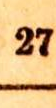27
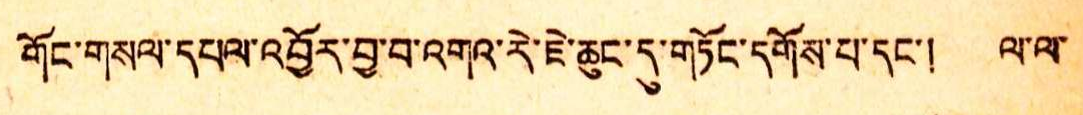གོང་གསལ་དཔལ་འབྱོར་བྱ་བ་འགའ་རི་ཇེ་ཆུང་དུ་གཏོང་དགོས་པ་དང་། ལ་ལ་
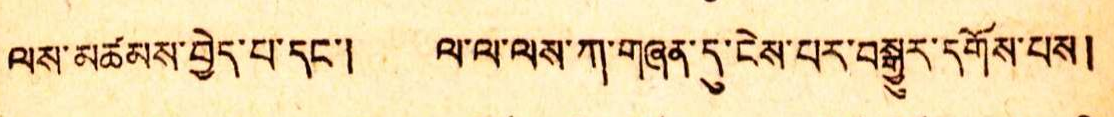ལས་མཚམས་བྱེད་པ་དང་། ལ་ལ་ལས་ཀ་གཞན་དུ་ངེས་པར་བསྒྱུར་དགོས་པས།
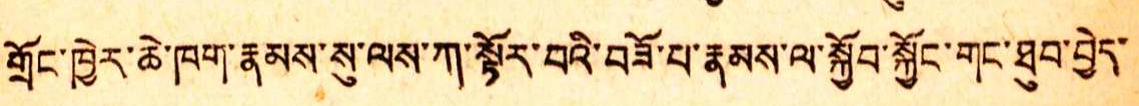གྲོང་ཁྱེར་ཆེ་ཁག་རྣམས་སུ་ལས་ཀ་སྟོར་བའི་བཟོ་པ་རྣམས་ལ་སྐྱོབ་སྐྱོང་གང་ཐུབ་བྱེད་
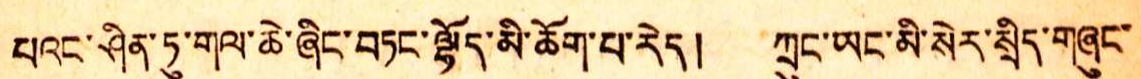པའང་ཤིན་ཏུ་གལ་ཆེ་ཞིང་གཏང་ལྷོད་མི་ཆོག་པ་རེད། ཀྲུང་ཡང་མི་སེར་སྲིད་གཞུང་
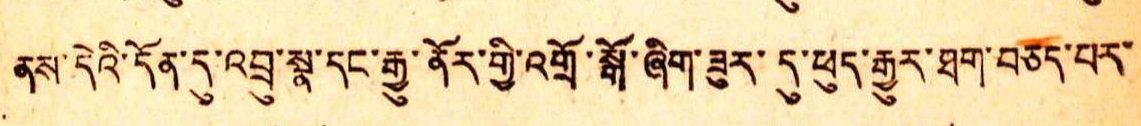ནས་དེའི་དོན་དུ་འབྲུ་སྣ་དང་རྒྱུ་ནོར་གྱི་འགྲོ་སྒོ་ཞིག་ཟུར་དུ་ཕུད་རྒྱུར་ཐག་བཅད་པར་
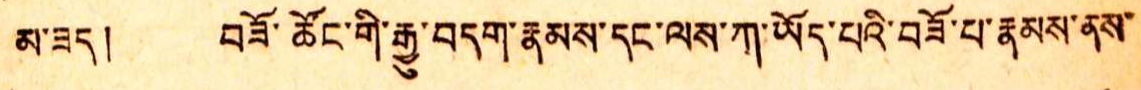མ་ཟད ། བཟོ་ཚོང་གི་རྒྱུ་བདག་རྣམས་དང་ལས་ཀ་ཡོད་པའི་བཟོ་པ་རྣམས་ནས་
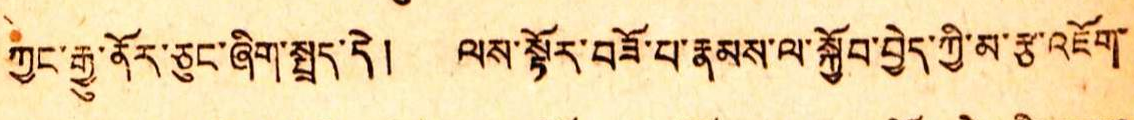ཀྱང་རྒྱུ་ནོར་ཅུང་ཞིག་སྤྲད་དེ ། ལས་སྟོར་བཟོ་པ་རྣམས་ལ་སྐྱོབ་བྱེད་ཀྱི་མ་རྩ་འཇོག་
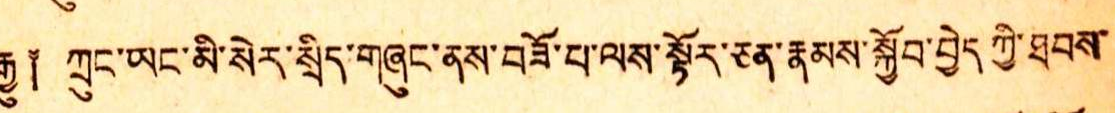རྒྱུ༐ ཀྲུང་ཡང་མི་སེར་སྲིད་གཞུང་ནས་བཟོ་པ་ལས་སྟོར་ཅན་རྣམས་སྐྱོབ་བྱེད་ཀྱི་ཐབས་
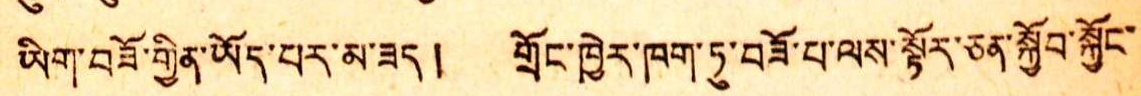ཡིག་བཟོ་གྱིན་ཡོད་པར་མ་ཟད ། གྲོང་ཁྱེར་ཁག་ཏུ་བཟོ་པ་ལས་སྟོར་ཅན་སྐྱོབ་རྐྱོང་
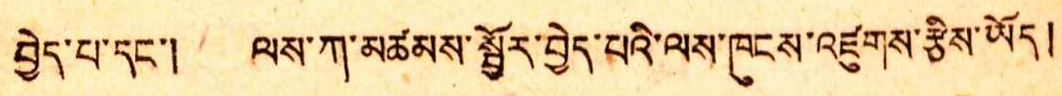བྱེད་པ་དང་། ལས་ཀ་མཚམས་སྦྱོར་བྱེད་པའི་ལས་ཁུངས་འཛུགས་རྩིས་ཡོད།
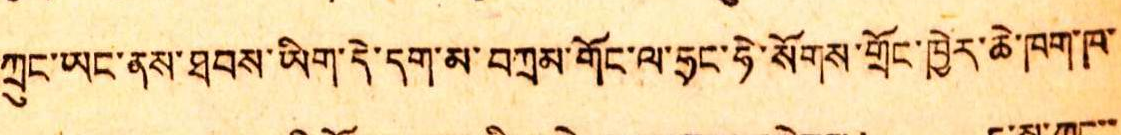ཀྲུང་ཡང་ནས་ཐལས་ཡིག་དེ་དག་མ་བཀྲམ་གོང་ལ་ཧྲང་ཧེ་སོགས་གྲོང་ཁྱིར་ཆེ་ཁག་ཁ་
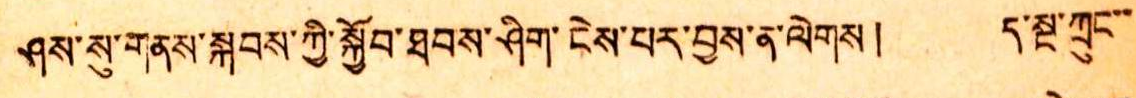ཤས་སུ་གནས་སྐབས་ཀྱི་སྐྱོབ་ཐབས་ཤིག་ངེས་པར་བྱས་ན་ལེགས ། ད་ལྔ་ཀྲུང་་
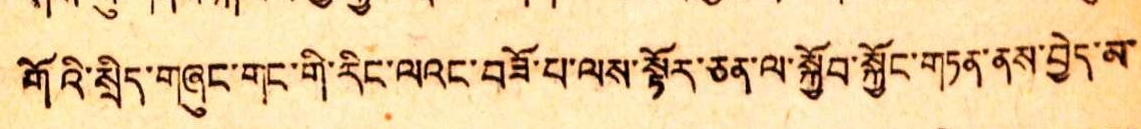གོའི་སྲིད་གཞུང་གང་གི་རིང་ལའང་བཟོ་བ་ལས་སྟོར་ཅན་ལ་སྐྱོབ་སྐྱོང་གཏན་ནས་བྱེད་མ་
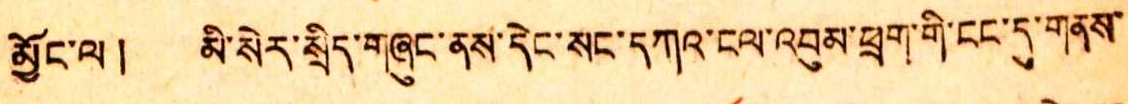མྱོང་ལ ། མི་སེར་སྲིད་གཞུང་ནས་དེང་སང་དཀའ་ངལ་འབུམ་ཕྲག་གི་ངང་དུ་གནས་
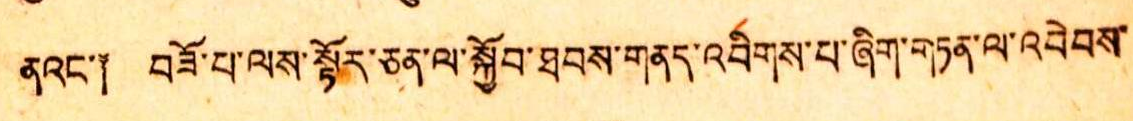ནའང་༐ བཟོ་པ་ལས་སྟོར་ཅན་ལ་སྐྱོབ་ཐབས་གནད་འབིགས་པ་ཞིག་གཏན་ལ་འབེབས་
